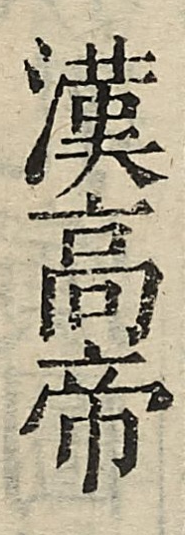漢高帝
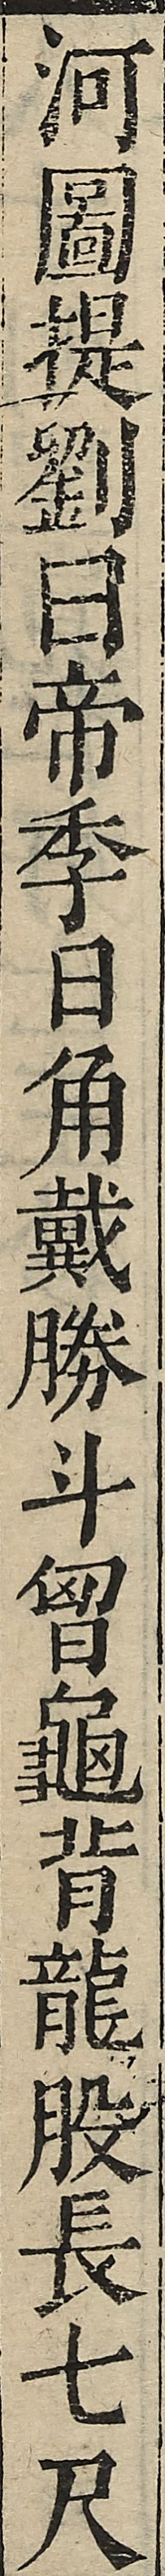河圖提劉曰帝季日角戴勝斗胸龜背龍股長七尺
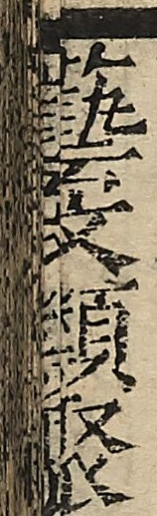藝文類聚
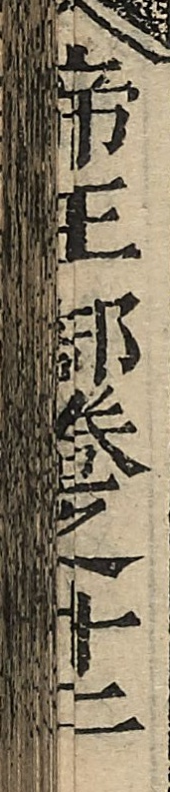帝王部卷之十二
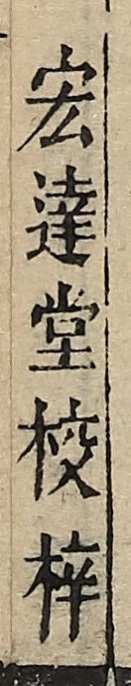宏達堂校梓
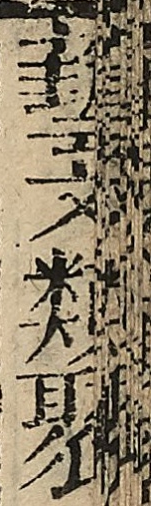藝文類聚
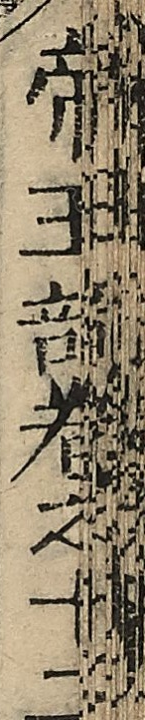帝王部卷之十二
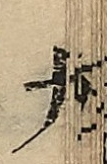九
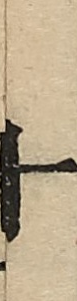十
